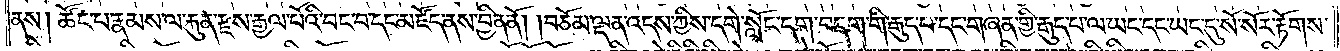ནས། ཚོང་པ་རྣམས་ལ་རྐུན་རྫས་རྒྱལ་པོའི་བང་བ་དང་མཛོད་ནས་བྱིན་ནོ། །བཅོམ་ལྡན་འདས་ཀྱིས་དགེ་སློང་དག་བདག་གི་རྒུད་པ་དང་གཞན་གྱི་རྒུད་པ་ལ་ཡང་དང་ཡང་དུ་སོ་སོར་རྟོགས་
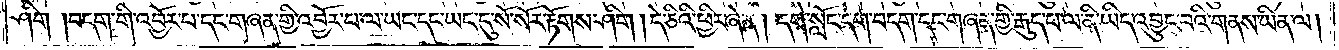ཤིག །བདག་གི་འབྱོར་པ་དང་གཞན་གྱི་འབྱོར་པ་ལ་ཡང་དང་ཡང་དུ་སོ་སོར་རྟོགས་ཤིག། དེ་ཅིའི་ཕྱིར་ཞེ་ན། དགེ་སློང་དག་བདག་དང་གཞན་གྱི་རྒུད་པ་ལ་ནི་ཡིད་འབྱུང་བའི་གནས་ཡིན་ལ།
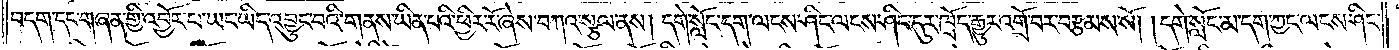བདག་དང་གཞན་གྱི་འབྱོར་པ་ཡང་ཡིད་འབྱུང་བའི་གནས་ཡིན་པའི་ཕྱིར་རོ་ཞེས་བཀའ་སྩལ་ནས། དགེ་སློང་དག་ལངས་ཤིང་ལངས་ཤིང་དུར་ཁྲོད་རྒྱུར་འགྲོ་བར་བརྩམས་སོ། །དགེ་སློང་མ་དག་ཀྱང་ལངས་ཤིང་
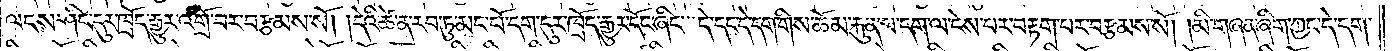ལངས་ཤིང་དུར་ཁྲོད་རྒྱུར་འགྲོ་བར་བརྩམས་སོ། །དེའི་ཚེ་ན་རབ་ཏུ་མང་པོ་དག་དུར་ཁྲོད་རྒྱུར་དོང་ཞིང་དེ་དང་དེ་དག་གིས་ཆོམ་རྐུན་པ་དག་ལ་ངེས་པར་བརྟག་པར་བརྩམས་སོ། །མི་གཞན་ཞིག་ཀྱང་དེ་དག་
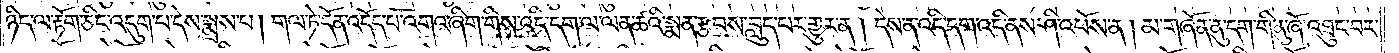ཉིད་ལ་རྟོག་ཅིང་འདུག་པ་དེས་སྨྲས་པ། གལ་ཏེ་དོན་འདོད་པ་འགའ་ཞིག་གིས་འདི་དག་ལ་ལན་ཚའི་སྨན་རྩབས་བླུད་པར་གྱུར་ན། དེས་ན་འདི་དག་འདི་ནས་ཤི་འཕོས་ན། མ་གཞོན་ནུ་དག་གི་ནུ་ཞོ་འཐུང་བར་
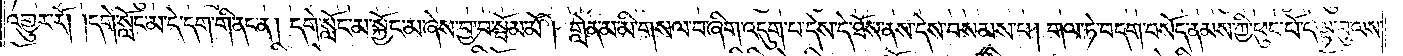འགྱུར་རོ། །དགེ་སློང་མ་དེ་དག་གི་ནང་ན། དགེ་སློང་མ་སྐྱོང་མ་ཞེས་བྱ་བ་སྦོམ་མོ། གླེན་མ་མི་གསལ་བ་ཞིག་འདུག་པ་དེས་དེ་ཐོས་ནས་དེས་བསམས་པ། གལ་ཏེ་བདག་བསོད་ནམས་ཀྱི་ཕུང་པོ་དེ་ལྟ་བུ་ལས་
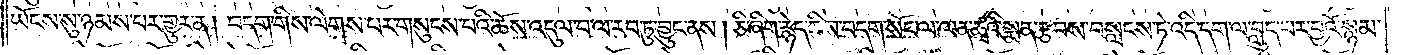ཡོངས་སུ་ཉམས་པར་གྱུར་ན། བདག་གིས་ལེགས་པར་གསུངས་པའི་ཆོས་འདུལ་བ་ལ་རབ་ཏུ་བྱུང་ནས། ཅི་ཞིག་རྙེད་ཀྱིས་བདག་སོང་ལ་ལན་ཚྭའི་སྨན་རྩབས་བསླངས་ཏེ་འདི་དག་ལ་བླུད་པར་བྱའོ་སྙམ་
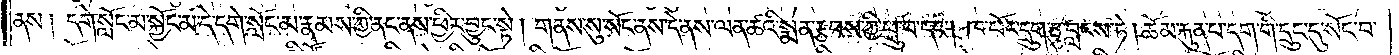ནས༑ དགེ་སློང་མ་སྐྱོང་མ་དེ་དགེ་སློང་མ་རྣམས་ཀྱི་ནང་ནས་ཕྱིར་བྱུང་སྟེ། གནས་སུ་སོང་ནས་དེ་ནས་ལན་ཚའི་སྨན་རྩབས་ཀྱི་ཕྲུ་བ་དང༌། ཁ་ཕོར་དྲུག་ཅུ་བླངས་ཏེ། ཆོམ་རྐུན་པ་དག་གི་དྲུང་དུ་སོང་བ་
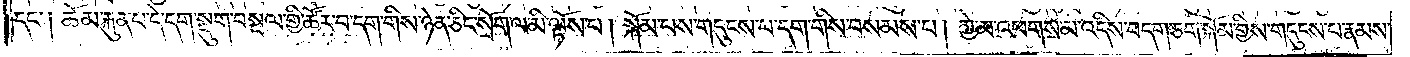དང༌། ཆོམ་རྐུན་པ་དེ་དག་སྡུག་བསྔལ་གྱི་ཚོར་བ་དག་གིས་ཉེན་ཅིང་སྲོག་ལ་མི་ལྟོས་པ། སྐོམ་པས་གདུངས་པ་དག་གིས་བསམས་པ། ཀྱེ་མ་འཕགས་མ་འདིས་བདག་ཅག་སྐོམ་གྱིས་གདུངས་པ་རྣམས་
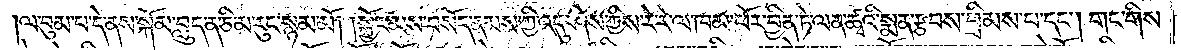།ལ་བུམ་པ་དེ་ནས་སྐོམ་བླུད་ན་ཅི་མ་རུང་སྙམ་མོ། །སྐྱོང་མས་བསོད་ནམས་ཀྱི་འདུ་ཤེས་ཀྱིས་རེ་རེ་ལ་ཁམ་ཕོར་བྱིན་ཏེ་ལན་ཚྭའི་སྨན་རྩབས་བྲིམས་པ་དང༌། གང་གིས་
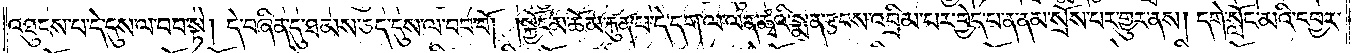འཐུངས་པ་དེ་དུས་ལ་བབ་སྟེ། དེ་བཞིན་དུ་ཐམས་ཅད་དུས་ལ་བབ་བོ། །སྐྱོང་མ་ཆོམ་རྐུན་པ་དེ་དག་ལ་ལན་ཚྭའི་སྨན་རྩབས་འབྲིམ་པར་བྱེད་པ་ན་ནམ་སྲོས་པར་གྱུར་ནས། དགེ་སློང་མའི་དབྱར་
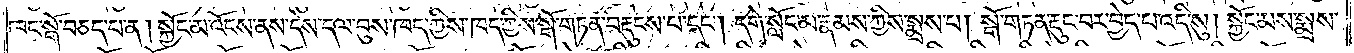ཁང་སྒོ་བཅད་པ་ན། སྐྱོང་མ་འོངས་ནས་དེས་དལ་བུས་ཁད་ཀྱིས་ཁད་ཀྱིས་སྒོ་གཏན་བརྡུངས་པ་དང༌། དགེ་སློང་མ་རྣམས་ཀྱིས་སྨྲས་པ། སྒོ་གཏན་རྡུང་བར་བྱེད་པ་འདི་སུ། སྐྱོང་མས་སྨྲས་
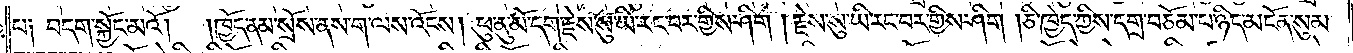པ༑ བདག་སྐྱོང་མའོ།  །ཁྱོད་ནམ་སྲོས་ནས་ག་ལས་འོངས། ཕུ་ནུ་མོ་དག་རྗེས་སུ་ཡི་རང་བར་གྱིས་ཤིག །རྗེས་སུ་ཡི་རང་བར་གྱིས་ཤིག །ཅི་ཁྱེད་ཀྱིས་དགྲ་བཅོམ་པ་ཉིད་མངོན་སུམ་
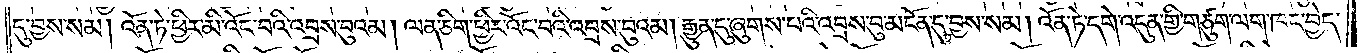དུ་བྱས་སམ། འོན་ཏེ་ཕྱིར་མི་འོང་བའི་འབྲས་བུའམ། ལན་ཅིག་ཕྱིར་འོང་བའི་འབྲས་བུའམ། རྒྱུན་དུ་ཞུགས་པའི་འབྲས་བུ་མངོན་དུ་བྱས་སམ། འོན་ཏེ་དགེ་འདུན་གྱི་གཙུག་ལག་ཁང་བྱེད་
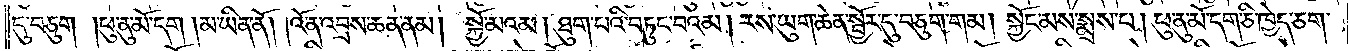དུ་བཅུག །ཕུ་ནུ་མོ་དག །མ་ཡིན་ནོ། །འོན་ན་འབྲས་ཆན་ནམ། སྐྱོ་མའམ། ཐུག་པའི་བཏུང་བའམ། རས་ཡུག་ཆེན་སྦྱོར་དུ་བཅུག་གམ། སྐྱོང་མས་སྨྲས་པ། ཕུ་ནུ་མོ་དག་ཅི་ཁྱེད་ཅག་
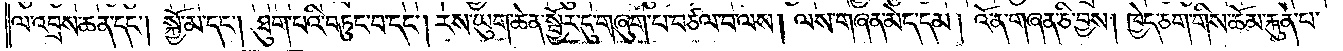ལ་འབྲས་ཆན་དང༌། སྐྱོ་མ་དང༌། ཐུག་པའི་བཏུང་བ་དང༌། རས་ཡུག་ཆེན་སྦྱོར་དུ་གཞུག་པ་བཙལ་བ་ལས། ལས་གཞན་མེད་དམ། འོ་ན་གཞན་ཅི་བྱས། ཁྱེད་ཅག་གིས་ཆོམ་རྐུན་པ་
